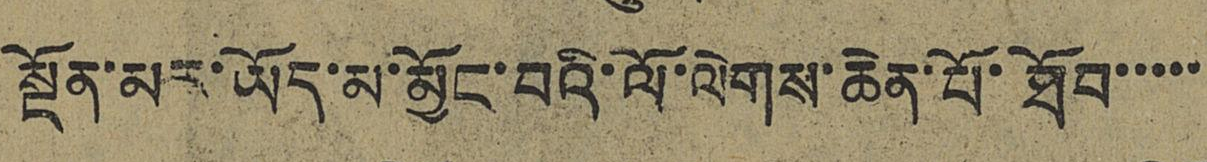སྔོན་མར་ཡོད་མ་མྱོང་བའི་ལོ་ལེགས་ཆེན་པོ་ཐོབ་་་་་
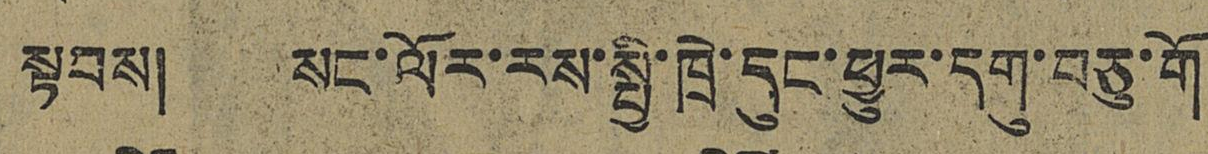སྟབས། སང་ལོར་རས་སྤྱི་ཁྲེ་དུང་ཕྱུར་དགུ་བཅུ་གོ
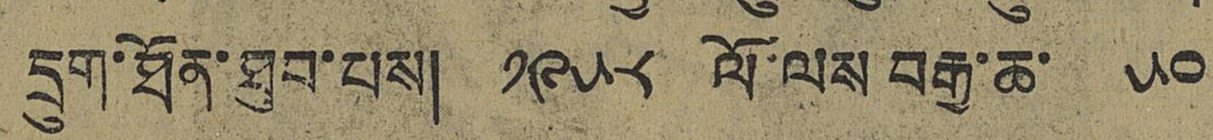དྲུག་ཐོན་ཐུབ་པས། ༡༩༥༨ ལོ་ལས བརྒྱ་ཆ་ ༥༠
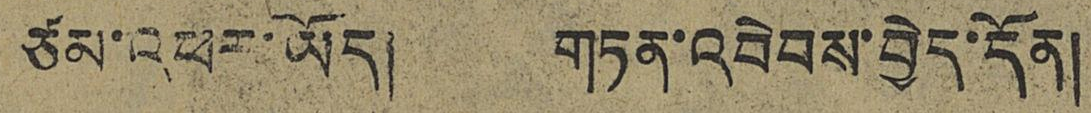ཙམ་འཕར་ཡོད། གཏན་འབེབས་བྱེད་དོན།
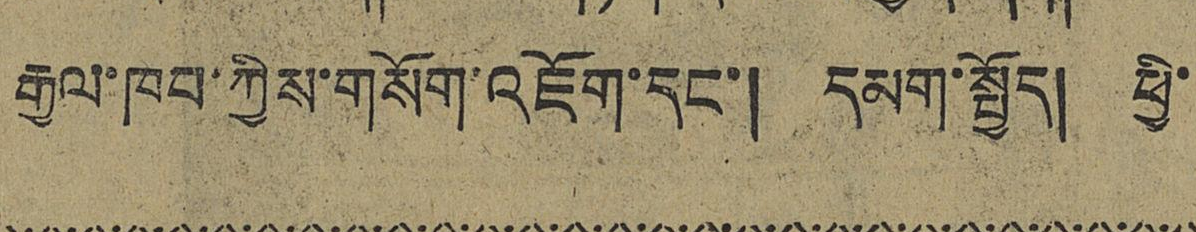རྒྱལ་ཁབ་ཀྱིས་གསོག་འཇོག་དང་། དམག་སྤྱོད། ཕྱི་
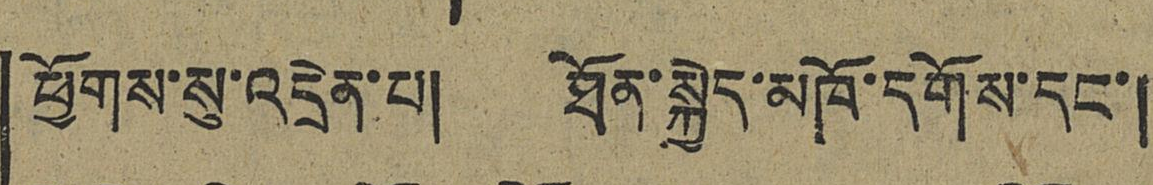ཕྱོགས་སུ་འདྲེན་པ། ཐོན་སྐྱེད་མཁོ་དགོས་དང་།
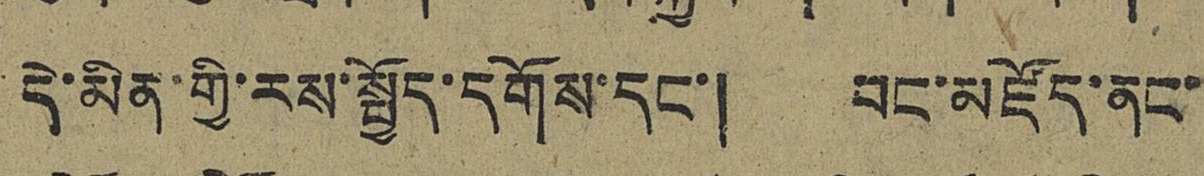དེ་མིན་གྱི་རས་སྤྱོད་དགོས་དང་། བང་མཛོད་ནང་
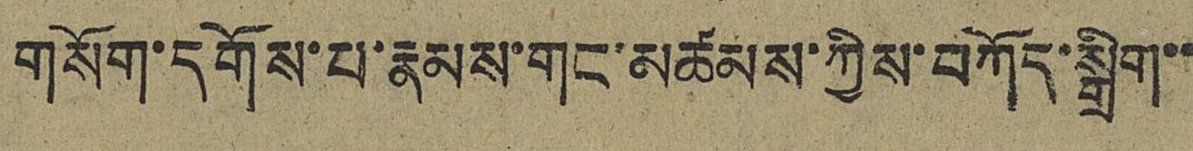གསོག་དགོས་པ་རྣམས་གང་མཚམས་ཀྱིས་བཀོད་སྒྲིག་་
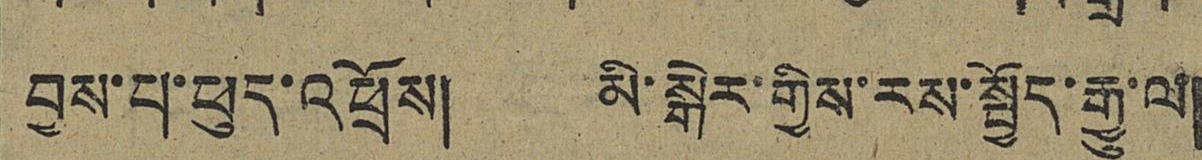བྱས་པ་ཕུད་འཕྲོས། མི་སྒེར་གྱིས་རས་སྤྱོད་རྒྱུ་ལ།
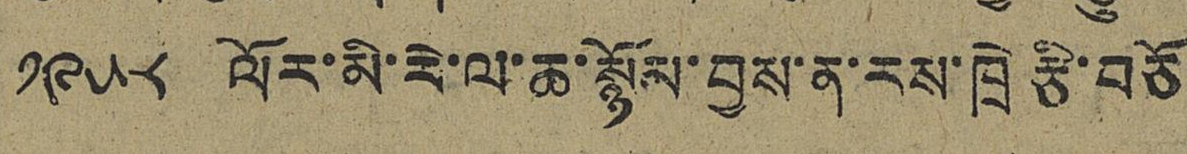༡༩༥༨ ལོར་མི་རེ་ལ་ཆ་སྙོམ་བྱས་ན་རས་ཁྲེ རྩི་བཅོ
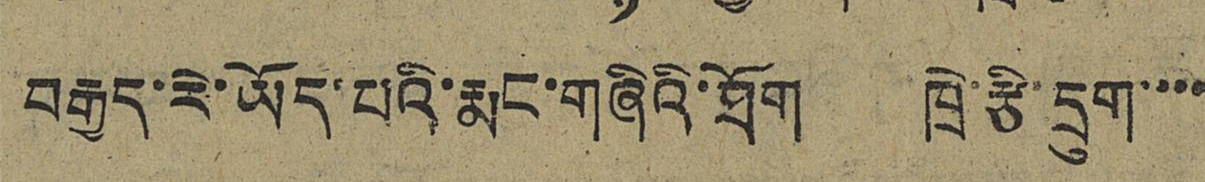བརྒྱད་རེ་ཡོད་པའི་རྨང་གཞིའི་ཐོག ཁྲེ་རྩི་དྲུག་་་་
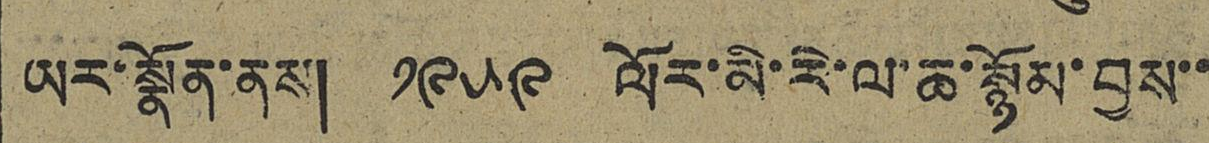ཡར་སྣོན་ནས། ༡༩༥༩ ལོར་མི་རེ་ལ་ཆ་སྙོམ་བྱས་་
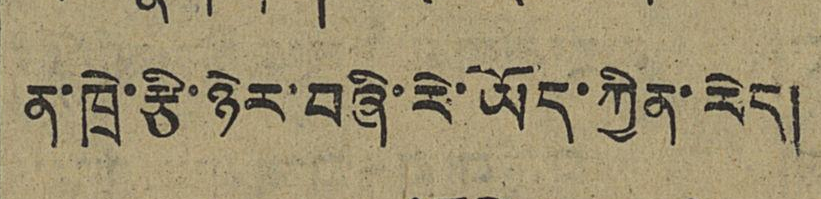ན་ཁྲེ་རྩི་ཉེར་བཞི་རེ་ཡོད་ཀྱིན་རེད།
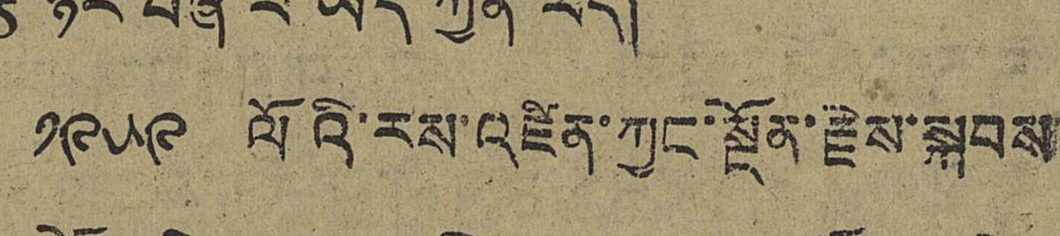༡༩༥༩ ལོའི་རས་འཛིན་ཀྱང་སྔོན་རྗེས་སྐབས
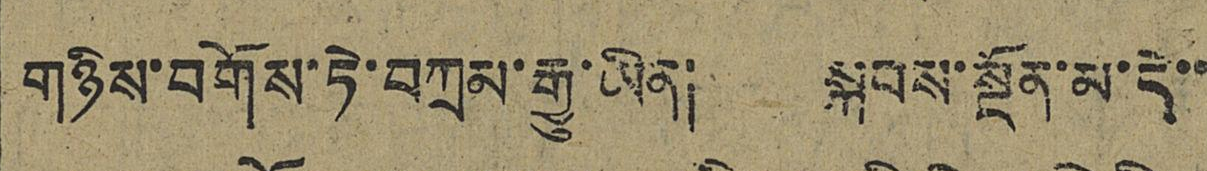གཉིས་བགོས་ཏེ་བཀྲམ་རྒྱུ་ཡིན། སྐབས་སྔོན་མ་དེ་་
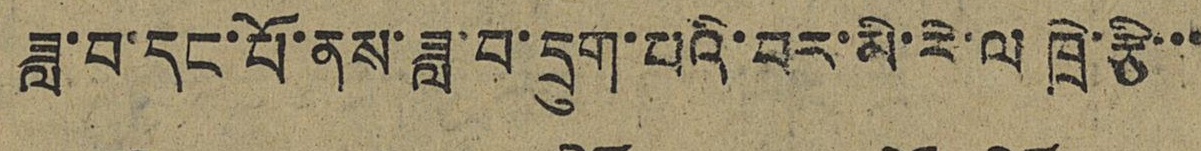ཟླ་བ་དང་པོ་ནས་ཟླ་བ་དྲུག་པའི་བར་མི་རེ་ལ ཁྲེ་རྩི་་་་
